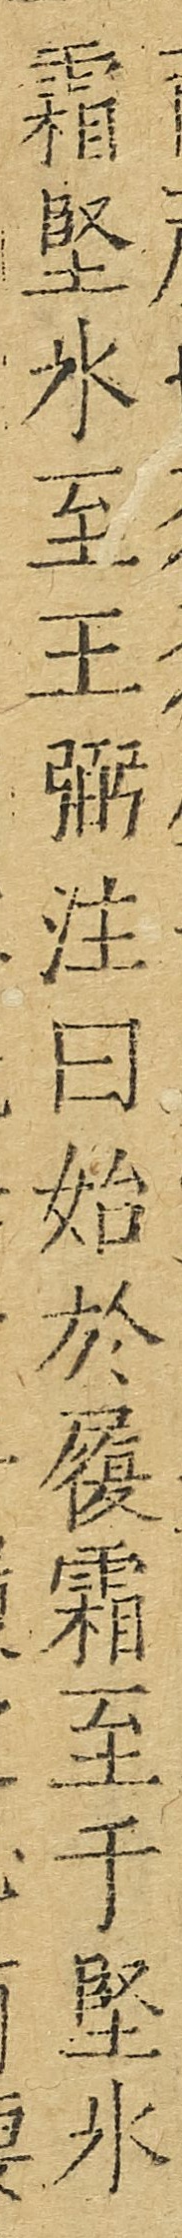霜堅冰至王弼注曰始於履霜至于堅冰
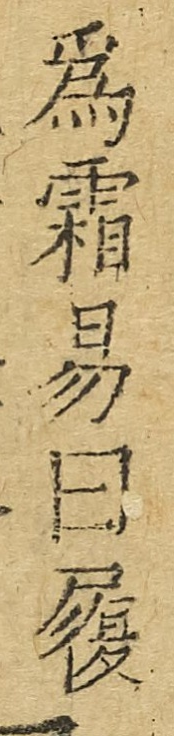而爲霜易曰履
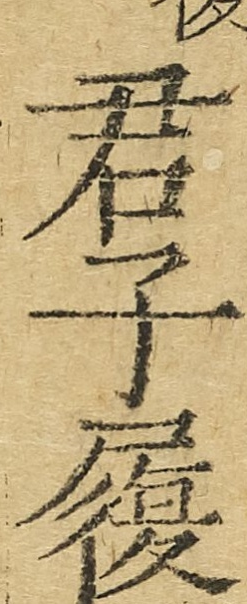君子履
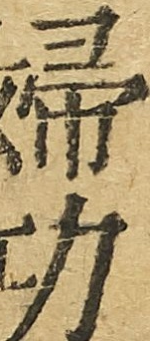婦功
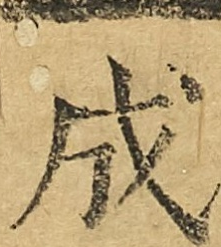成
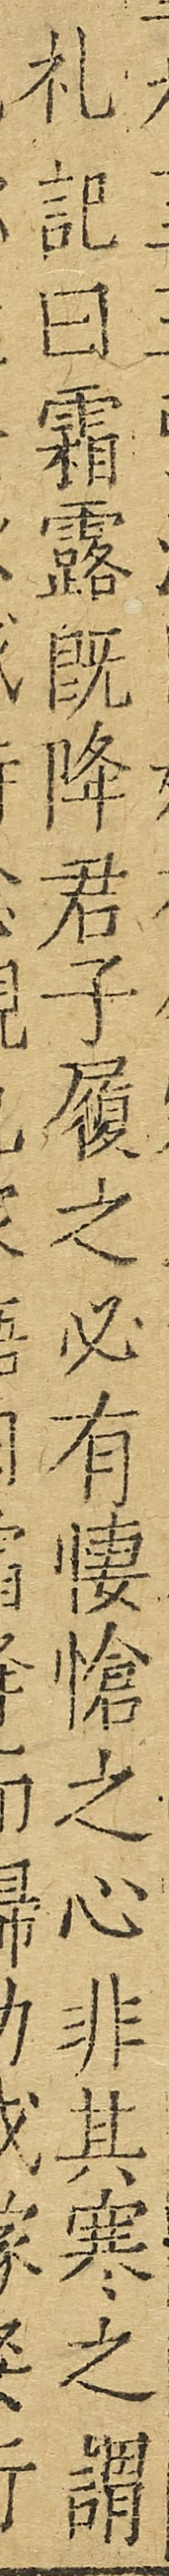禮記曰霜露旣降君子履之必有悽愴之心非其寒之謂
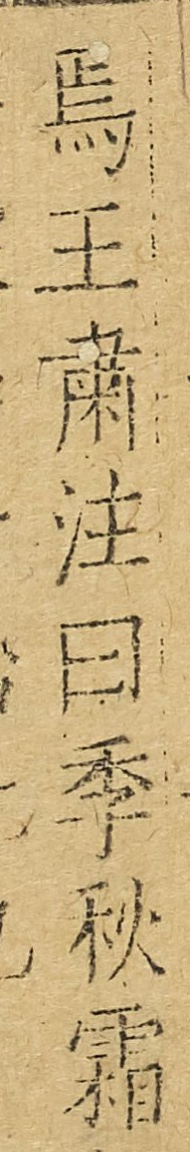焉王肅注曰季秋霜
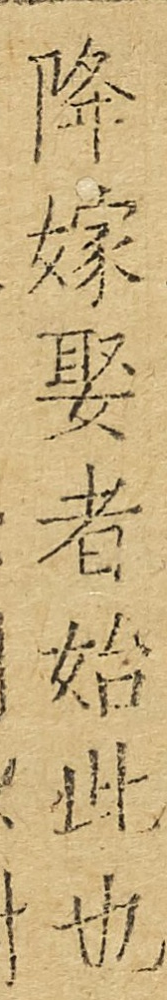降嫁娶者始此也
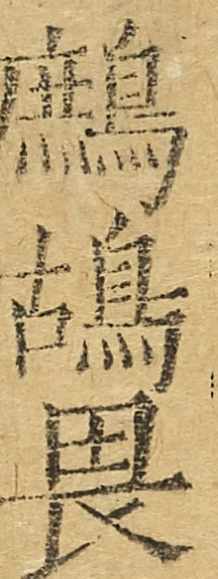鷓鴣畏
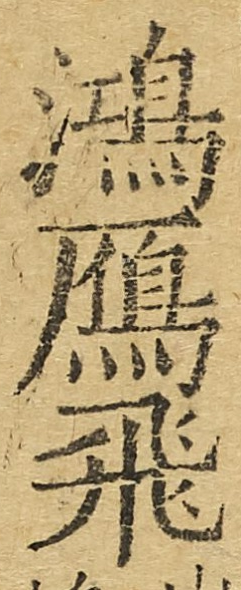鴻鴈飛
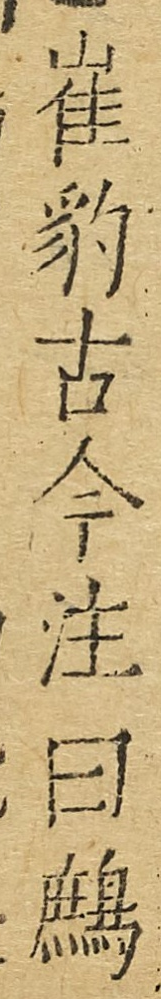崔豹古今注曰鷓
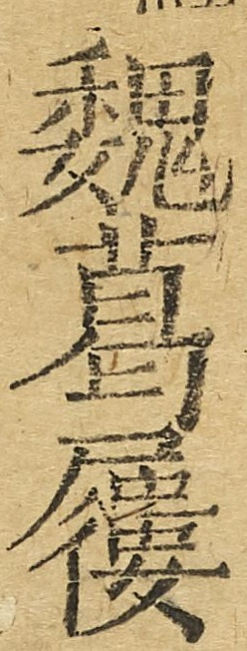魏葛屨
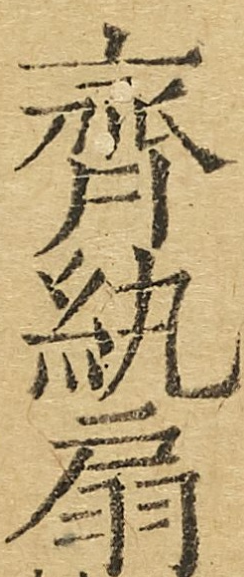齊紈扇
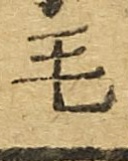毛
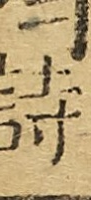詩
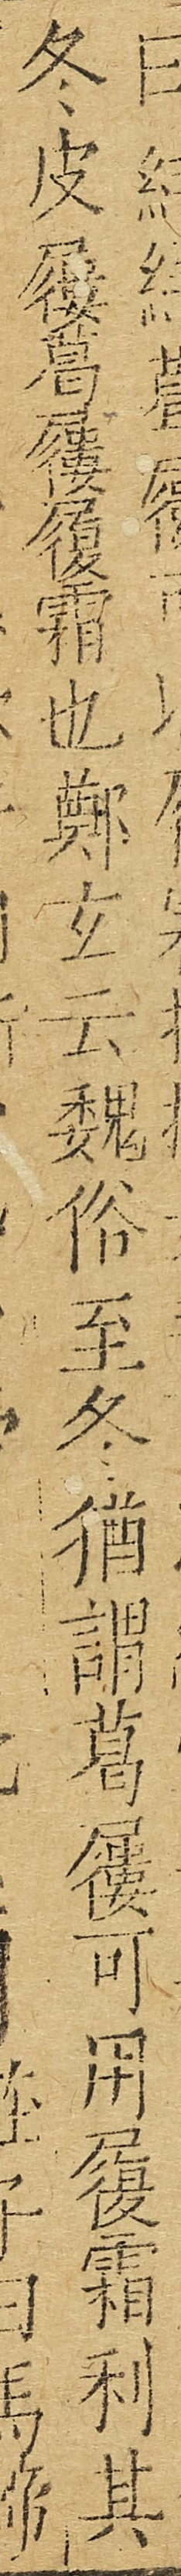冬皮屨葛屨履霜也鄭玄云魏俗至冬猶謂葛屨可用履霜利其
